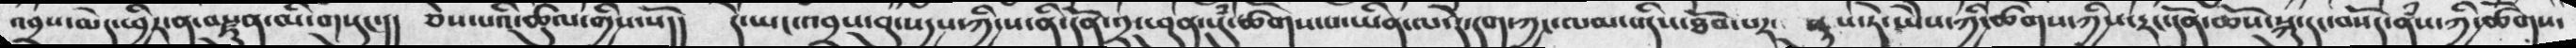འབྲས་མེད་ཕྱིར་ན་བརྫུན་མི་གསུང་།།  ཅེས་པའི་ཚུལ་གྱིས་སོ།།  དེ་ཡང་འབྲས་བུ་སདྱས་ཀྱི་ས་ནི་དོན་༢་ཕུན་སུཾ་ཚོགས་པ་ཡིན་ལ་དེ་དག་ཀྱང་ལམ་འདིས་ཐོབ་པར་ ནུས་ཏེ་ཡེེས་ཀྱི་ཚོགས་ཀྱིས་རང་དོན་ཆོས་སྐུ་དང་བསོད་ནཾས་ཀྱི་ཚོགས་
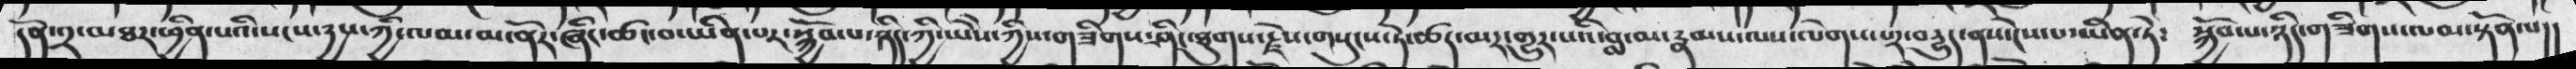དོན་༢་མཐར་ཕྱིན་པའི་སངས་དྱས་ཀྱི་ལམ་མ་ནོར་ཞིང་ཚང་བ་ཡིན་པར་སྐྱོབ་པ་ཉིད་ཀྱི་ཡེེས་ཀྱིས་གཟིགས་ཤིང་ཐུགས་རྗེས་གསུངས་ཏེ་ཚད་མར་གྱུར་པའི་བླ་མ་རྣམས་ལས་ལེགས་པར་བརྱུད་ནས་ངེས་པ་ཡིན་ཏེ༴   སྐྱོབ་པ་ཉིད་གཟིགས་ལམ་སྟོན་པ།།
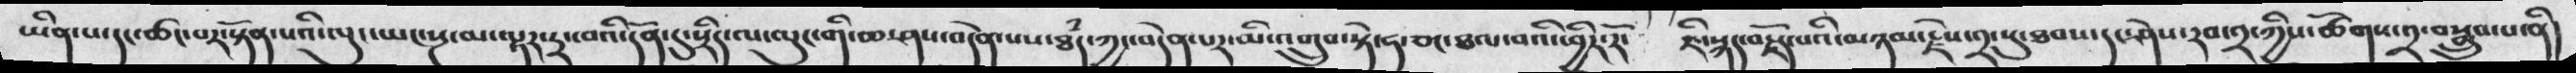ཡིན་པ་དང་ཚང་པར་སྟོན་པའི་ལུང་ཡང་སྔ་མ་ལྟར་དྲ་བའི་དོན་དུ་སྲིད་ལ་ལུང་གི་ཆ་ཤས་བདེན་པས་ཐཾད་ཀྱང་བདེན་པར་མི་འགྲུབ་སྟེ་ཧ་ཅང་ཐལ་བའི་ཕྱིར་རོ་  ཇི་སྐད་བརྗོད་པའི་མཉམ་རྗེས་༢་སུ་ཐབས་དང་ཤེས་རབ་༢་ཀྱིས་ཚོགས་༢་བསྒྲུབ་པ་ནི།
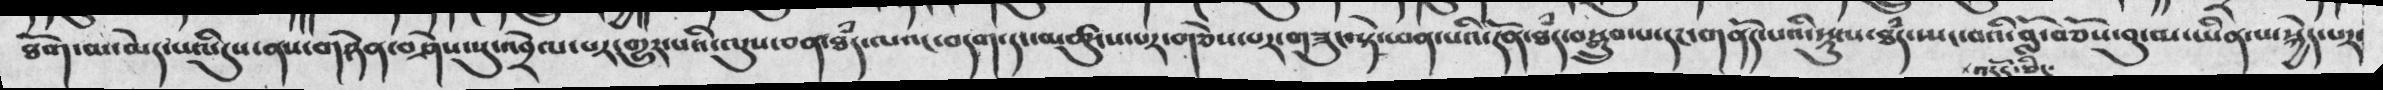ཐོག་མ་མེད་པའི་དུས་ནས་གཉེན་བཤེས་སུ་འབྲེལ་པར་གྱུར་པའི་ལུས་ཅན་ཐཾད་ལའང་བདག་དང་མཚུངས་པར་བརྩེས་པར་གཟུང་སྟེ་ཕན་པའི་དོན་ཐཾད་བསྒྲུབ་པ་དང་གནོད་པའི་སྡུལ་ཐཾད་སྤང་བའི་བློ་བཅོས་བུ་མ་ཡིན་པ་སྐྱེད་པར་
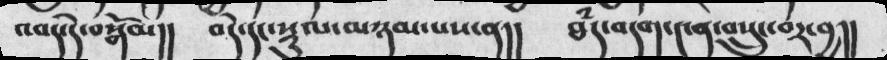འབད་དེ་བསྒོམ།།   བདེ་དང་སྡུལ་མཉམ་པས་ན།།   ཐཾད་བདག་༤ན་བསྲུང་བར་བྱ།།
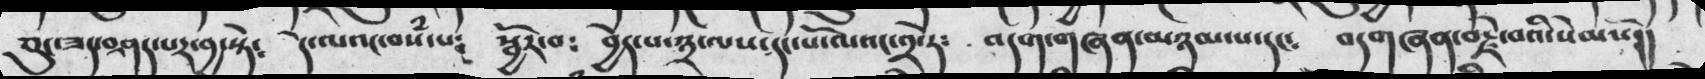ཅིང་ཟད་བཤད་པར་བྱ་སྟེ༴  དེ་ལའང་བསཾ་པ༴  སྦྱོར་བ༴  བྱེད་པ་༣་ལས་དང་པོ་ལའང་༢་དེ༴  བདག་གཞན་མཉམ་པ་དང༴  བདགཞན་བརྗེ་བའི་སེམསོ།།
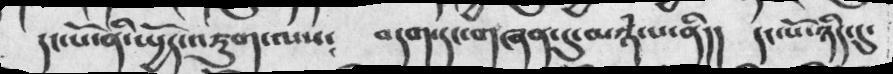དང་པོ་ནི་སྤྱོད་འཇུག་ལས༴ བདག་དང་གཞན་དུ་མཉཾ་པ་ནི།།  དང་པོ་ཉིད་དུ་
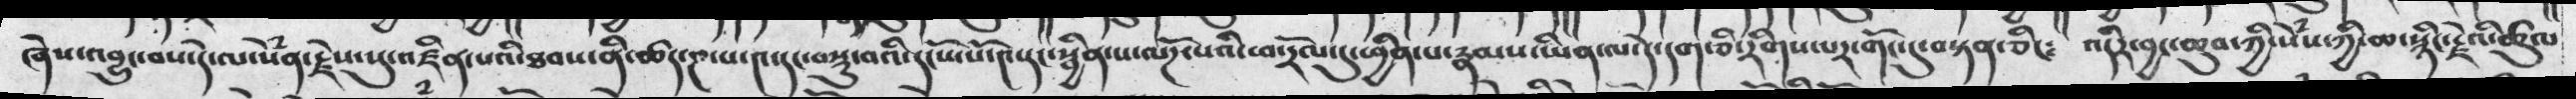ཞེས་འབྱུང་བས་དེ་ལ་སེཾན་རྗེས་སུ་འཛིན་པའི་ཐབས་ནི་ཚད་ཎ་པ་༤་དང་བསྡུ་བའི་དངོས་པོ་༤་རང་སྦྱིན་པ་ལོཌ་པའི་ཕ་རོལ་དུ་ཕྱིན་པ་རྣམས་ཡིན་ལ་དེ་དག་ཅི་རིགས་པར་གོང་དུ་བསྟན་ཅིང༴  འདིར་བྱང་ཆུབ་ཀྱི་སེཾས་ཀྱི་ཆ་སྙིང་རྗེའི་ཚུལ
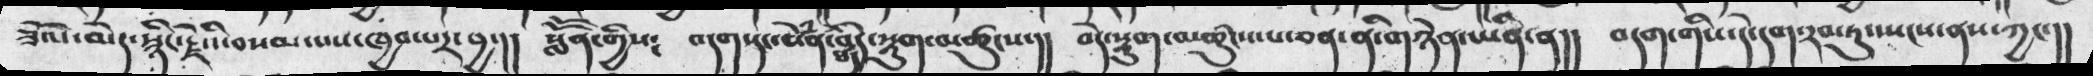ཟོལ་མེད་སྙིང་རྗེ་དེ་བསམ་པས་ཁྱབ་པར་བྱ་།།  སློོན་གྱིས༴   བདག་དང་སེཾན་ཐཾད་བདེ་སྡུག་མཚུངས་།།  བདེ་སྡུག་མཚུངས་པ་ཅན་ནི་གཉེན་ཡིན་ན།།  བདག་གིས་དེ་དག་རབ་ཏུ་སྤངས་ནས་ཀྱང་།།
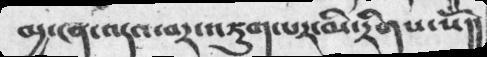མྱ་ངན་འདའ་བར་འཇུག་པར་མི་རིགས་སོ།།
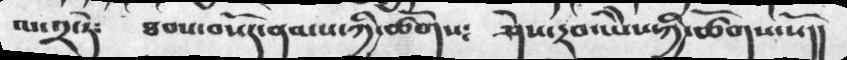ལ་༢་ཏེ༴    ཐབས་བསོད་ནམས་ཀྱི་ཚོགས༴      ཤེས་རབ་ཡེེས་ཀྱི་ཚོགས་སོ།།
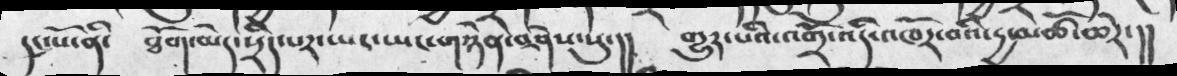དང་པོ་ནི་      ཐོག་མེད་སྲིད་པར་ཡང་ཡང་གཉེན་བཤེས་སུ་།།    གྱུར་པའི་འགྲོ་འདི་འཁོར་བའི་དྱ་མཚོ་ཆེར་།།
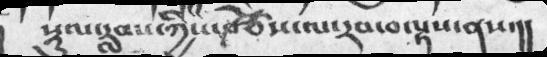སྡུལ་རླབས་ཀྱིས་བཙས་ལ་རབ་བལྟས་ནས་།།
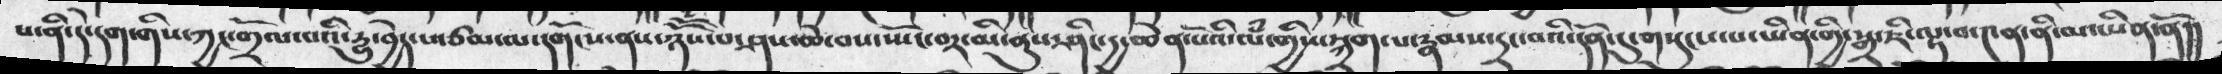པ་ནི་དེ་དག་གིས་ཀྱང་གྲོལ་བའི་དྱུ་བྱེད་པ་ཙམ་མ་དགོངས་ནས་ཉོོས་པ་ཤས་ཆེ་བས་སྤོང་བར་མི་ནུས་ཤིང་དྱ་ཆེན་པོའི་ལཾ་གྱིས་སྐྲག་པ་རྣམས་དྲང་བའི་དོན་དུ་གསུངས་པ་ཡིན་གྱི་སྒྲ་ཇི་ལྟ་བ་༤ན་ནི་མ་ཡིན་ནོ།།
